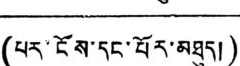(པར་ངེས་དང་པོར་མཐུད།)
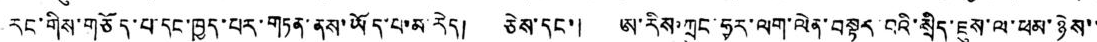རང་གིས་གཅོད་པ་དང་ཁྱད་པར་གཏན་ནས་ཡོད་པ་མ་རེད། ཅེས་དང་། ཨ་རིས་ཀྲུང་ཧྭར་ལག་ལེན་བསྟད་པའི་སྲིད་ཇུས་ལ་ཕམ་ཉེས་་
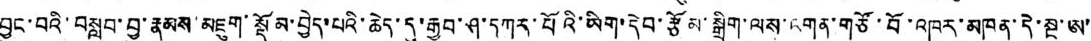བྱུང་བའི་བསླབ་བྱ་རྣམས་མཇུག་སྡོམ་བྱེད་པའི་ཆེད་དུ་རྒྱབ་ཤ་དཀར་པོའི་ཡིག་དེབ་རྩོམ་སྒྲིག་ལས་འགན་གཙོ་བོ་འཁུར་མཁན་དེ་སྔ་ཨ་
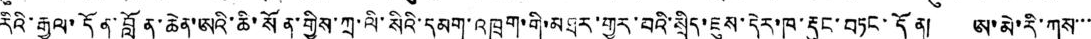རིའི་རྒྱལ་དོན་བློན་ཆེན་ཨའི་ཆི་སོན་གྱིས་ཀྲ་ལི་སིའི་དམག་འཁྲུག་གི་མཐར་གྱར་བའི་སྲིད་ཇུས་དེར་ཁ་རྡུང་བཏང་དོན། ཨ་མེ་རི་ཀས་་་
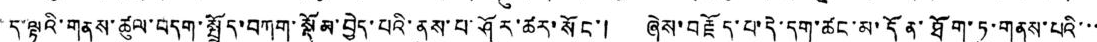ད་ལྟའི་གནས་ཚུལ་བདག་སྤྲོད་བཀག་སྡོམ་བྱེད་པའི་ནུས་པ་ཤོར་ཚར་སོང་། ཞེས་བརྗོད་པ་དེ་དག་ཚང་མ་དོན་ཐོག་ཏུ་གནས་པའི་་་
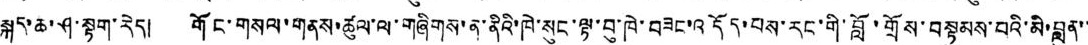སྐད་ཆ་ཤ་སྟག་རེད། གོང་གསལ་གནས་ཚུལ་ལ་གཞིགས་ན་ནིའི་ཁེ་སུང་ལྟ་བུ་ཁེ་བཟང་འདོད་པས་རང་གི་བློ་གྲོས་བསྟུམས་པའི་མི་བླུན་་
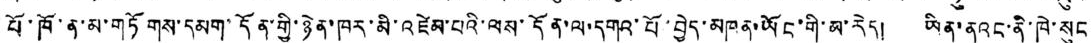པོ་ཁོ་ན་མ་གཏོགས་དམག་དོན་གྱི་ཉེན་ཁར་མི་འཛེམ་པའི་ལས་དོན་ལ་དགའ་པོ་བྱེད་མཁན་ཡོང་གི་མ་རེད། ཡིན་ནའང་ནི་ཁེ་སུང་
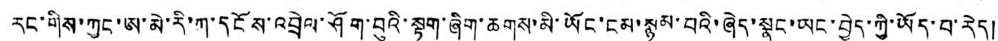རང་གིས་ཀྱང་ཨ་མེ་རི་ཀ་དངོས་འབྲེལ་ཤོག་བུའི་སྟག་ཞིག་ཆགས་མི་ཡོང་ངམ་སྙམ་པའི་ཞེད་སྣང་ཡང་བྱེད་ཀྱི་ཡོད་པ་རེད།
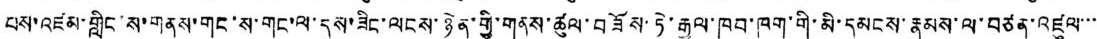པས་འཛམ་གླིང་ས་གནས་གང་ས་གང་ལ་དུས་ཟིང་ལངས་ཉེན་གྱི་གནས་ཚུལ་བཟོས་ཏེ་རྒྱལ་ཁབ་ཁག་གི་མི་དམངས་རྣམས་ལ་བཙན་འཛུལ་་་
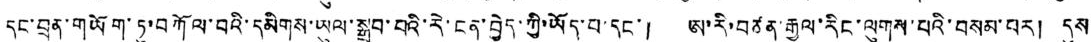དང་བྲག་གཡོག་ཏུ་བཀོལ་བའི་དམིགས་ཡུལ་སྒྲུབ་པའི་རེ་ངན་བྱེད་ཀྱི་ཡོད་པ་དང་། ཨ་རི་བཙན་རྒྱལ་རིང་ལུགས་པའི་བསམ་པར། དུས་
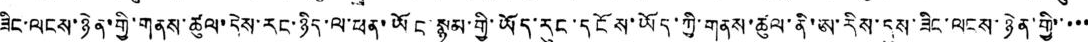ཟིང་ལངས་ཉེན་གྱི་གནས་ཚུལ་དེས་རང་ཉིད་ལ་ཕན་ཡོང་སྙམ་གྱི་ཡོད་རུང་དངོས་ཡོད་ཀྱི་གནས་ཚུལ་ནི་ཨ་རིས་དུས་ཟིང་ལངས་ཉེན་གྱི་་་་་
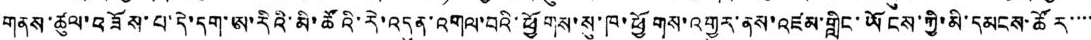གནས་ཚུལ་འཟོས་པ་དེ་དག་ཨ་རིའི་མི་ཚོའི་རེ་འདུན་འགལ་བའི་ཕྱོགས་སུ་ཁ་ཕྱོགས་འགྱུར་ནས་འཛམ་གླིང་ཡོངས་ཀྱི་མི་དམངས་ཚོར་་་་
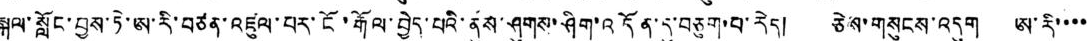སྐུལ་སློང་བྱས་ཏེ་ཨ་རི་བཙན་འཛུལ་པར་ངོ་རྒོལ་བྱེད་པའི་ནུས་ཤུགས་ཤིག་འདོན་དུ་བཅུག་པ་རེད། ཅེས་གསུངས་འདུག ཨ་རི་་་་
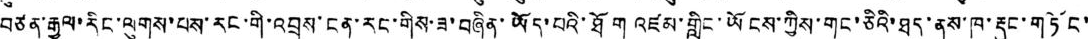བཙན་རྒྱལ་རིང་ལུགས་པས་རང་གི་འབྲས་ངན་རང་གིས་ཟ་བཞིན་ཡོད་པའི་ཐོག འཛམ་གླིང་ཡོངས་ཀྱིས་གང་ཅིའི་ཐད་ནས་ཁ་རྡུང་གཏོང་
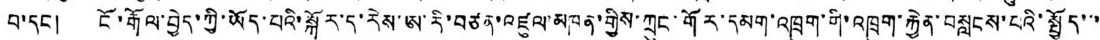པ་དང། ངོ་རྒོལ་བྱེད་ཀྱི་ཡོད་པའི་སྐོར་ད་རེས་ཨ་རི་བཙན་འཛུལ་མཁན་གྱིས་ཀྲུང་གོར་དམག་འཁྲུག་གི་འཁྲུག་རྐྱེན་བསླངས་པའི་སྤྱོད་་་
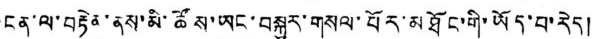ངན་ལ་བརྟེན་ནས་མི་ཚོས་ཡང་བསྐྱར་གསལ་པོར་མཐོང་གི་ཡོད་པ་རེད།
